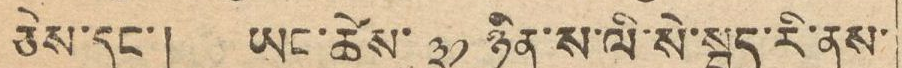ཅེས་དང་། ཡང་ཚེས་ ༣༡ ཉིན་ས་ལི་སེ་སྦད་རི་ནས་
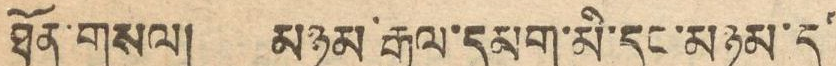ཐོན་གསལ། མཉམ་རྒྱལ་དམག་མི་དང་མཉམ་དུ་
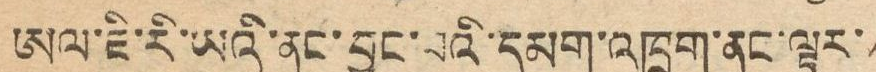ཨལ་ཇི་རི་ཡའི་ནང་བྱུང་པའི་དམག་འཁྲུག་ནང་ལྟར་
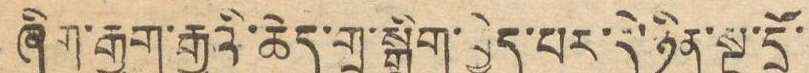ཞིག་རྒྱག་རྒྱུའི་ཆེད་གྲ་སྒྲིག་བྱེད་པར་དེ་ཉིན་སྔ་དྲོ་
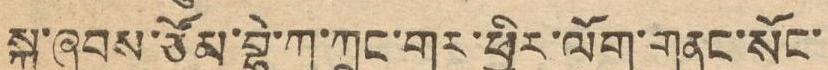སྐུ་ཞབས་ཙོམ་བྷེ་ཀ་ཀྲང་གར་ཕྱིར་ལོག་གནང་སོང་
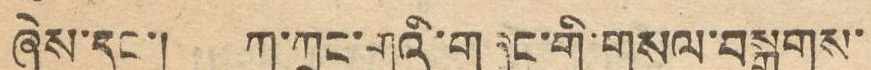ཞེས་དང་། ཀ་ཀྲང་གའི་གཞུང་གི་གསལ་བསྒྲགས་
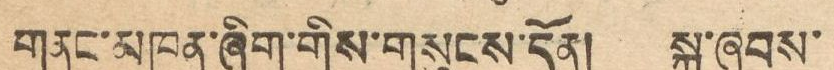གནང་མཁན་ཞིག་གིས་གསུངས་དོན། སྐུ་ཞབས་
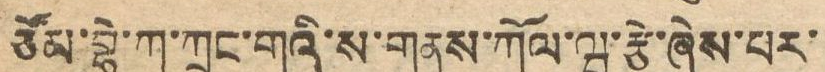ཙོམ་བྷེ་ཀ་ཀྲང་གའི་ས་གནས་ཀོལ་ཝ་རྩེ་ཞེས་པར་
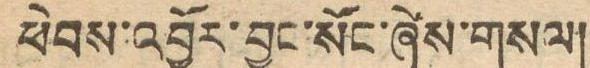ཕེབས་འབྱོར་བྱུང་སོང་ཞེས་གསལ།
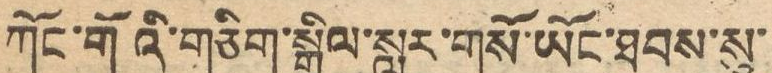ཀོང་གོའི་གཅིག་སྒྲིལ་སླར་གསོ་ཡོང་ཐབས་སུ་
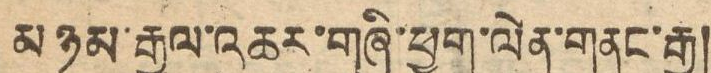མཉམ་རྒྱལ་འཆར་གཞི་ཕྱག་ལེན་གནང་རྒྱུ།
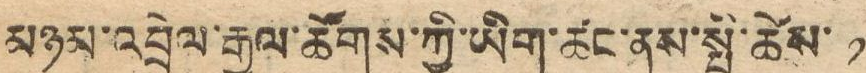མཉམ་འབྲེལ་རྒྱལ་ཚོགས་ཀྱི་ཡིག་ཚང་ནས་སྤྱི་ཚེས་ ༡
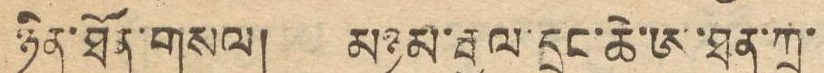ཉིན་ཐོག་གསལ། མཉམ་རྒྱལ་དྲུང་ཆེ་ཨུ་ཐན་ཀྲ་
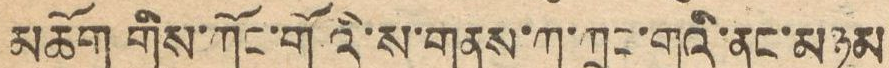མཆོག གིས་ཀོང་གོའི་ས་གནས་ཀ་ཀྲང་གའི་ནང་མཉམ
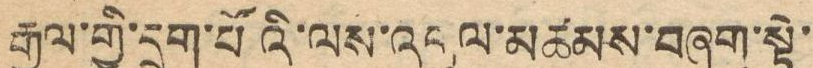རྒྱལ་གྱི་དྲག་པོའི་ལས་འགུལ་མཚམས་བཞག་སྟེ་
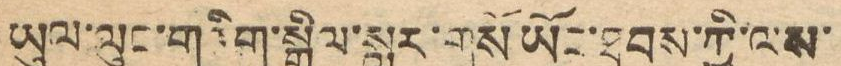ཡུལ་ལུང་གཅིག་སྒྲིལ་སླར་གསོ ཡོང་ཐབས་ཀྱི་ལས་
